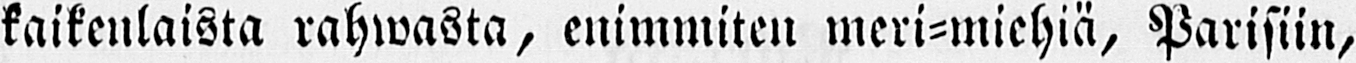kaikenlaista rahwasta, enimmiten meri-miehiä, Parisiin,
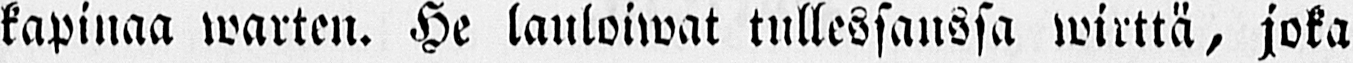kapinaa warten. He lauloiwat tullessanssa wirttä, joka
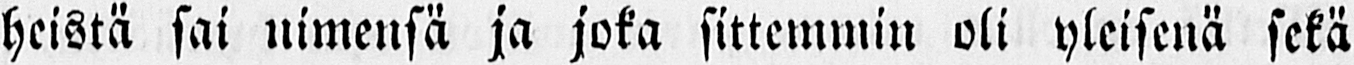heistä sai nimensä ja joka sittemmin oli yleisenä sekä
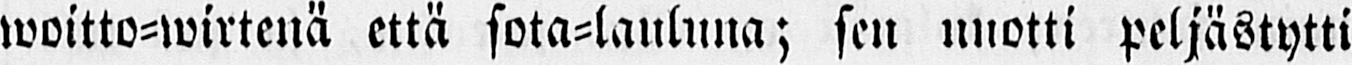woitto-wirtenä että sota-lauluna; sen nuotti peljästytti
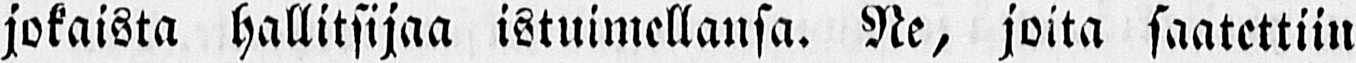jokaista hallitsijaa istuimellansa. Ne, joita saatettiin
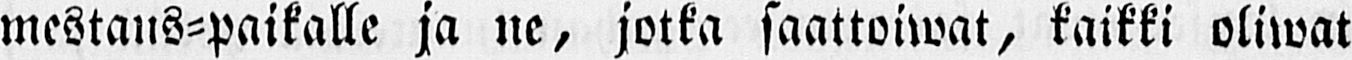mestaus-paikalle ja ne, jotka saattoiwat, kaikki oliwat
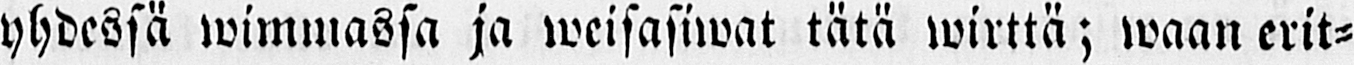yhdessä wimmassa ja weisasiwat tätä wirttä; waan erit-
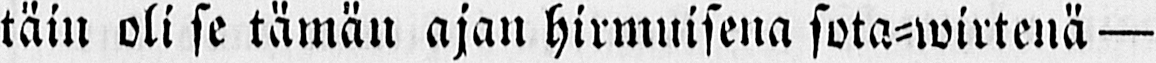täin oli se tämän ajan hirmuisena sota-wirtenä — Lamar-
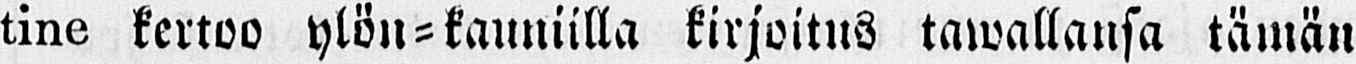tine kertoo ylön-kauniilla kirjoitus tawallansa tämän
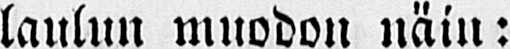laulun muodon näin:
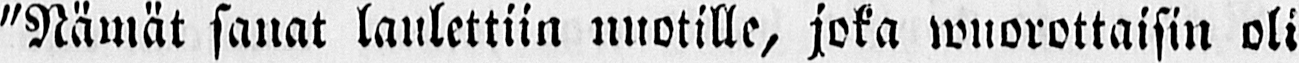"Nämät sanat laulettiin nuotille joka wuorottaisin oli
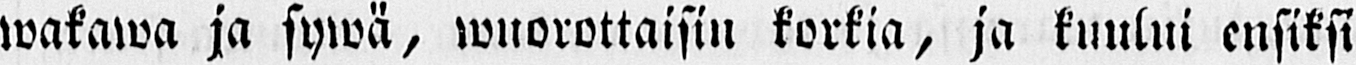wakawa ja sywä, wuorottaisin korkia, ja kuului ensiksi
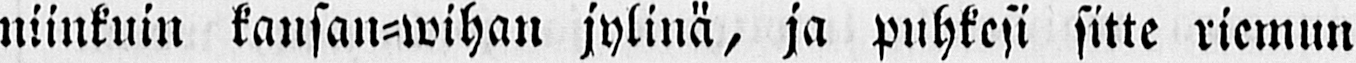niinkuin kansan-wihan jylinä, ja puhkesi sitte riemun
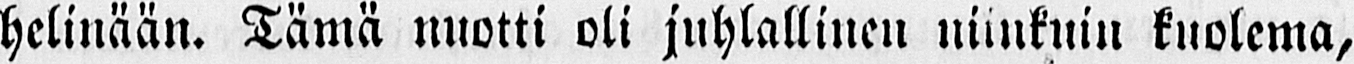helinään. Tämä nuotti oli juhlallinen niinkuin kuolema,
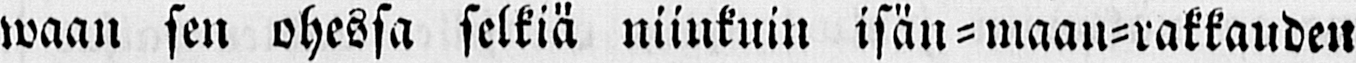waan sen ohessa selkiä niinkuin isän-maan-rakkauden
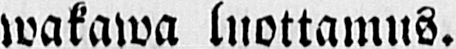wakawa luottamus.
